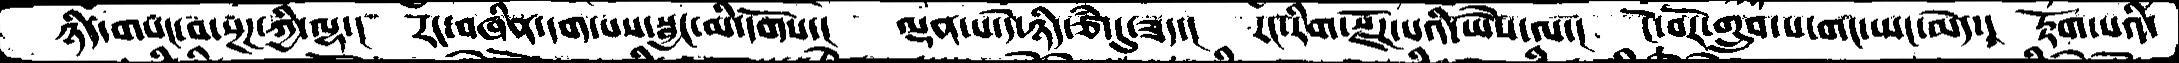ཉིད་གསང་བ་སྔཌ་ཀྱི་ལྷ་།  རང་བཞིན་དག་པས་སྦྱང་མི་དགོས་།  ལྡན་པ་དེ་ཉིད་ཙཾ་དུ་ཟད་།  རང་རིག་སྫོགས་པའི་ཡཻས་ལ་།  ངོ་བོར་གྲུབ་པ་གང་ཡང་མེད་།  རྟོག་པའི་
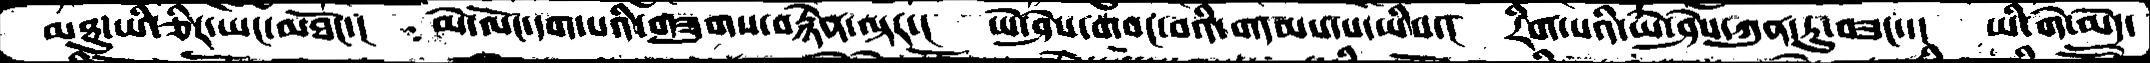མཐུ་ཡི་ཅིར་ཡང་མཐོང་།  མེ་ལོང་དག་པའི་གཟུགས་བརྙེན་ལྟར་།  ཡེ་ཤེས་གསང་བའི་གདམས་པ་ཡིས་།  རིག་པའི་ཡེ་ཤེས་ཀུན་ཏུ་བཟང་།  ཡི་གེ་མེད་
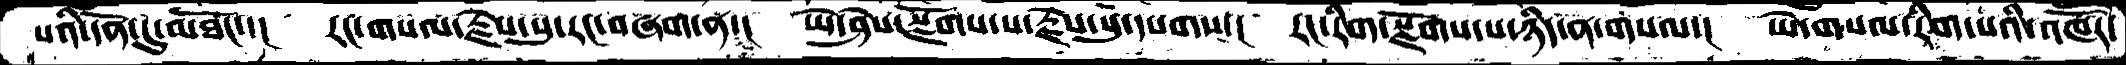པའི་དོན་དུ་མཐོང་།  རང་གསལ་རྗེས་སུ་རང་གཞག་ན་།  ཡེ་ཤེས་སྫོགས་པ་རྗེས་སུ་དཔགས་།  རང་རིག་སྫོགས་པ་ཉིད་ན་གསལ་།  ཡེ་གསལ་རིག་པའི་འཁོར་
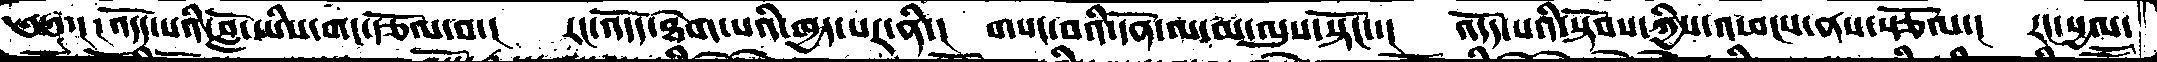༄༅་།  ། འདོད་པའི་བློ་ཡིས་གང་རྩོལ་བ་།  རང་འདོད་ཐེག་པའི་ཁྱད་པར་ནི་།  གསང་བའི་དོན་ལ་མ་ལུས་སྟོང་།  འདོད་པའི་སྟོབས་ཀྱིས་འཕངས་ནས་སྩོལ་།  རང་སྱལ་
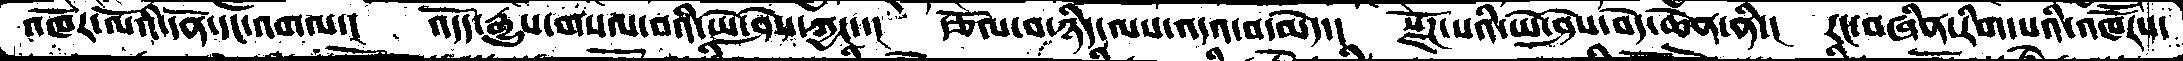འཁོར་ལོའི་དོན་དང་འགལ་།  འདོད་རྒྱུས་གསལ་བའི་ཡེ་ཤེས་ཀྱང་་།  རྩོལ་བ་ཉིད་ལས་འདའ་བ་མེད་།  སྫོཌ་པའི་ཡེ་ཤེས་བདེ་ཆེན་ནི་།  རང་བཞིན་རིག་པའི་འཁཽརས་
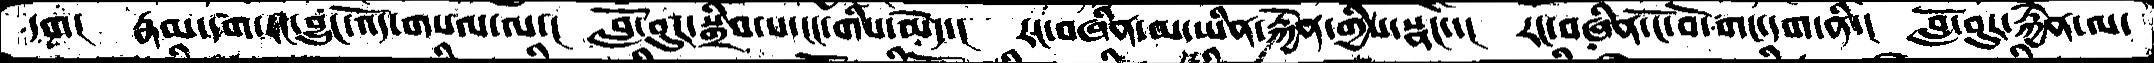དག།  རྣམ་དག་རང་བྱུང་འོད་གསལ་ལ་།  བློ་བུར་སྒྲིབ་པ་ངང་གིས་མེད་།  རང་བཞིན་མ་ཡིན་རྐྱེན་གྱིས་སྣང་།  རང་བཞིན་ངོ་བོ་གང་དག་ནི་།  བློ་བུར་རྐྱེན་ལ་
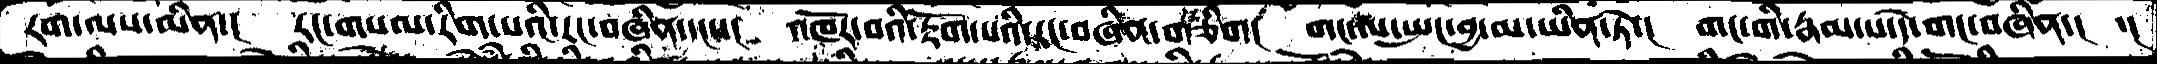རག་ལས་མིན་།  རང་གསལ་རིག་པའི་རང་བཞིན་དང་་།  འཁོར་བའི་རྟོག་པའི་རང་བཞིན་གཅིག།   གང་ལ་སྤང་བྱ་མ་ཡིན་ཏེ་།  གང་གི་རྣམ་པ་དེ་གང་བཞིན་།  ་།
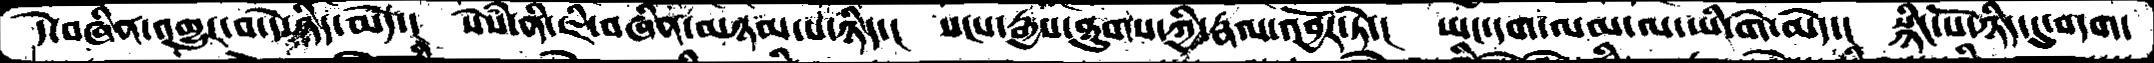དེ་བཞིན་འགྱུར་བ་དེ་ཉིད་མེད་།  སེསཾ་ནི་ཇི་བཞིན་མཉམ་པ་ཉིད་།  སངས་རྒྱས་ཐུགས་ཀྱི་རྣལ་འབྱོར་ཏེ་།  ཡང་དག་ལམ་ལ་ཡི་གེ་མེད་།  སྙིང་པོ་ཉིད་དུ་བདག་
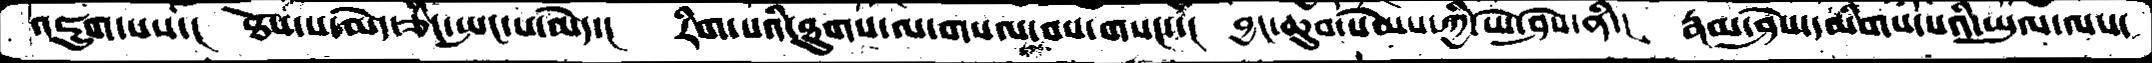འཇུགས་པས་།  ཐོས་པ་མེད་ཅིང་སྤང་པ་མེད་།  རིག་པའི་ཐུགས་ལ་གསལ་བས་གསང་་།  བྱང་ཆུབ་སེམས་ཀྱི་ཡེ་ཤེས་ནི་།  རྣམ་ཤེས་དམིགས་པའི་ཡུལ་ལས་
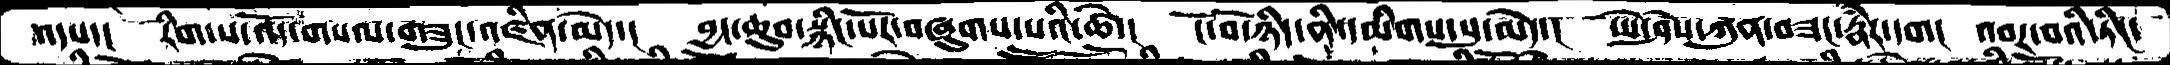འདས་།  རིག་པ་འོད་གསལ་གཟུང་འཛིན་མེད་།  བྱང་ཆུབ་སྙིང་པོར་བཞུགས་པའི་ཚེ་།  ངོ་བོ་ཉིད་ནི་དམིགས་སུ་མེད་།  ཡེ་ཤེས་ཀུན་བཟང་རྣཾར་དག།  འབར་བའི་ཏིང་
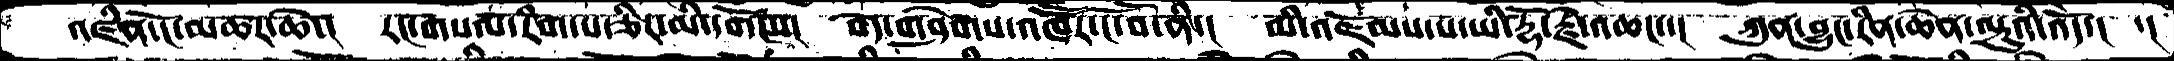འཛིན་ངོ་མཚར་ཆེ་།  རང་གསལ་རིག་པ་ཅིར་མི་དགོངས་།  བདེ་གཤེགས་འཁཽར་ངོ་བོ་ནི་།  མི་འཇོམས་པ་ཡི་རྡོ་རྗེ་འཆང་་།  ཀུན་བྱུང་རིན་ཆེན་ལྟུའི་འོད་།  ་།
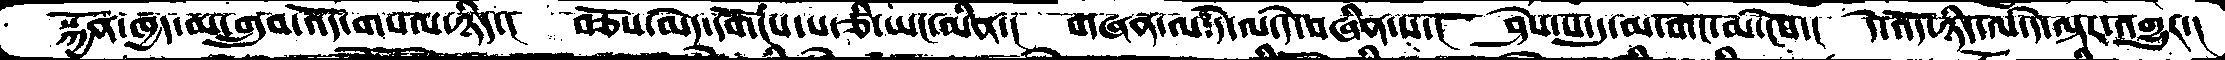སྐྱོན་ཁྱད་མ་གྲུབ་འོད་གསལ་ཉིད་།  བཅོས་མེད་དགོངས་པ་ཅི་ཡང་མིན་།  གཞན་ལ་དེ་ལ་དེ་བཞིན་ས་།  ཤེས་པ་དུ་མ་གོང་མ་ངེས་།  དེ་འོད་ཉིད་ལ་དེ་ལྟར་འགྱུར་།
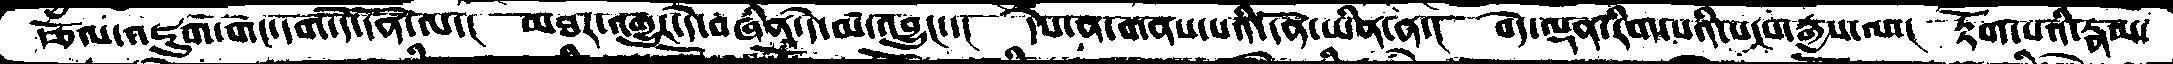དཅོལ་འཇུག་གང་དག་དེ་དོན་ལ་། མཐར་འགྱུར་དེ་བཞིན་དེ་མ་འབྱུང་་། དེས་ན་གནས་པའི་དོན་ཡིན་ན་། བདེ་ལྡན་རིག་པའི་སངས་རྒྱས་ལ་། རྟོག་པའི་རྣམ་
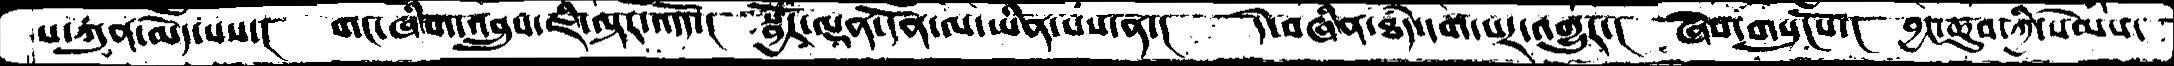པ་ཀུན་མེད་པས་།  གང་ཞིག་འབྲུས་ཇི་ལྟར་འདོད་།  སྦྱོར་ལྡན་དོན་ལ་ཡིན་པས་ན་།  དེ་བཞིན་ཐཾད་དག་པར་འགྱུར་།   ཞེས་གསུངསོ་།  བྱང་ཆུབ་ཀྱི་སེམས་
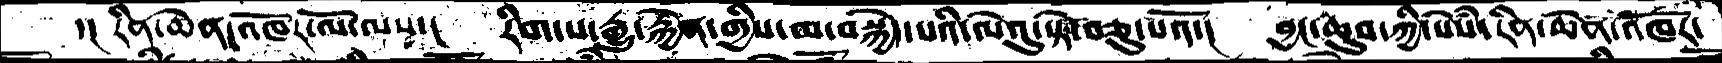དང རིན་ཆེན་འཁོར་ལོ་ལས་། རིག་པ་རྒྱུ་རྐྱེན་གྱིས་མ་བསྐྱེད་པའི་ལེའུ་སྟེ་བཅུ་པའོ་། བྱང་ཆུབ་ཀྱི་སེཾས་རིན་ཆེན་འཁོར་
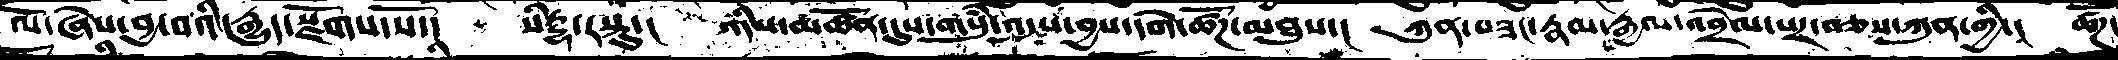ལོ་ཞེས་བྱ་བའི་སྫོགས་སོ་།  སིདྡྷ་ཏསྟུ་།   འདིས་མཚོན་དུས་གསུཾ་འདུས་བྱས་དགེ་ཚོཌ་མཐུས་།  ཀུན་བཟང་རྣམ་རྒྱལ་འབྲེལ་པར་བཅས་ཀུན་གྱི་།  ཚོཌ་
